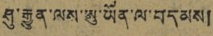ཤུ་རྒྱུན་ལས་ཨུ་ཡོན་ལ་བདམས།
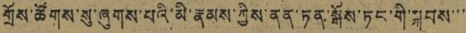གྲོས་ཚོགས་སུ་ཞུགས་པའི་མི་རྣམས་ཀྱིས་ནན་ཏན་སྒོས་རང་གི་སྐབས་་་་
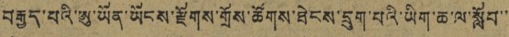བརྒྱད་པའི་ཨུ་ཡོན་ཡོངས་རྫོགས་གྲོས་ཚོགས་ཐེངས་དྲུག་པའི་ཡིག་ཆ་ལ་སློབ་་
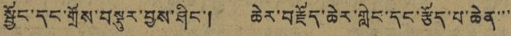སྦྱོང་དང་གྲོས་བསྡུར་བྱས་ཤིང་། ཆེར་བརྗོད་ཆེར་གླེང་དང་རྩོད་པ་ཆེན་་་
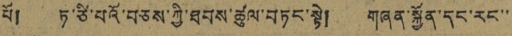པོ། ཏ་ཙི་པའོ་བཅས་ཀྱི་ཐབས་ཚུལ་བཏང་སྟེ། གཞན་སྐྱོན་དང་རང་་
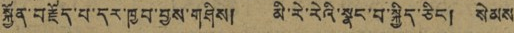སྐྱོན་བརྗོད་པ་དར་ཁྱབ་བྱས་གཤིས། མི་རེ་རེའི་སྣང་བ་སྐྱོད་ཅིང་། སེམས
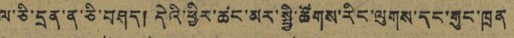ལ་ཅི་དྲན་ན་ཅི་བཤད། དེའི་ཕྱིར་ཚང་མར་སྤྱི་ཚོགས་རིང་ལུགས་དང་གུང་ཁྲན
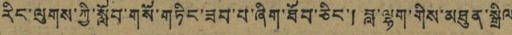རིང་ལུགས་ཀྱི་སློབ་གསོ་གཏིང་ཟབ་པ་ཞིག་ཐོབ་ཅིང་། བླ་ལྷག་གིས་མཐུན་སྒྲིལ
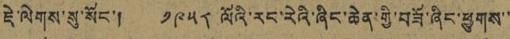ཇེ་ལེགས་སུ་སོང་། ༡༩༥༨ ལོའི་རང་རེའི་ཞིང་ཆེན་གྱི་བཟོ་ཞིང་ཕྱུགས་་
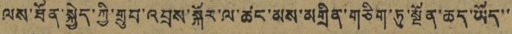ལས་ཐོན་སྐྱེད་ཀྱི་གྲུབ་འབྲས་སྐོར་ལ་ཚང་མས་མགྲིན་གཅིག་ཏུ་སྔོན་ཆད་ཡོད་་
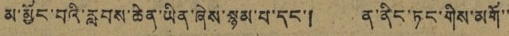མ་མྱོང་བའི་རླབས་ཆེན་ཡིན་ཞེས་སྙམ་པ་དང་། ན་ནིང་ཏང་གིས་མགོ་་
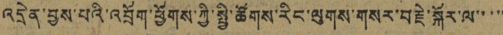འདྲེན་བྱས་པའི་འབྲོག་ཕྱོགས་ཀྱི་སྤྱི་ཚོགས་རིང་ལུགས་གསར་བརྗེ་སྐོར་ལ་་་་་
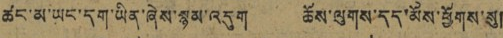ཚང་མ་ཡང་དག་ཡིན་ཞེས་སྙམ་འདུག ཆོས་ལུགས་དད་མོས་ཕྱོགས་སུ།
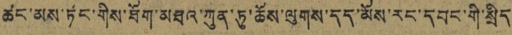ཚང་མས་ཏང་གིས་ཐོག་མཐའ་ཀུན་ཏུ་ཆོས་ལུགས་དད་མོས་རང་དབང་གི་སྲིད་
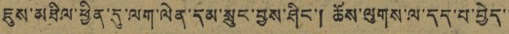ཇུས་མཐིལ་ཕྱིན་དུ་ལག་ལེན་དམ་སྲུང་བྱས་ཤིང་། ཆོས་ལུགས་ལ་དད་པ་བྱེད་་
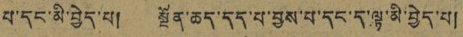པ་དང་མི་བྱེད་པ། སྔོན་ཆད་དད་པ་བྱས་པ་དང་ད་ལྟ་མི་བྱེད་པ།
